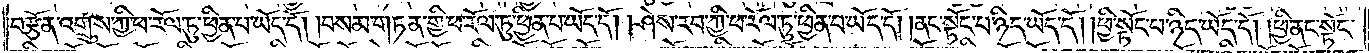བརྩོན་འགྲུས་ཀྱི་ཕ་རོལ་ཏུ་ཕྱིན་པ་ཡོད་དོ། །བསམ་གཏན་གྱི་ཕ་རོལ་ཏུ་ཕྱིན་པ་ཡོད་དོ། །ཤེས་རབ་ཀྱི་ཕ་རོལ་ཏུ་ཕྱིན་པ་ཡོད་དོ། །ནང་སྟོང་པ་ཉིད་ཡོད་དོ། །ཕྱི་སྟོང་པ་ཉིད་ཡོད་དོ། །ཕྱི་ནང་སྟོང་
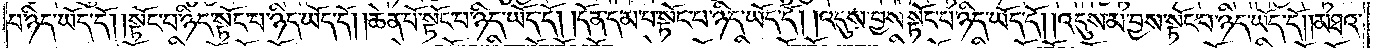པ་ཉིད་ཡོད་དོ། །སྟོང་པ་ཉིད་སྟོང་པ་ཉིད་ཡོད་དོ། །ཆེན་པོ་སྟོང་པ་ཉིད་ཡོད་དོ། །དོན་དམ་པ་སྟོང་པ་ཉིད་ཡོད་དོ། །འདུས་བྱས་སྟོང་པ་ཉིད་ཡོད་དོ། །འདུས་མ་བྱས་སྟོང་པ་ཉིད་ཡོད་དོ། །མཐའ་
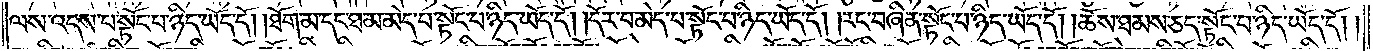ལས་འདས་པ་སྟོང་པ་ཉིད་ཡོད་དོ། །ཐོག་མ་དང་ཐ་མ་མེད་པ་སྟོང་པ་ཉིད་ཡོད་དོ། །དོར་བ་མེད་པ་སྟོང་པ་ཉིད་ཡོད་དོ། །རང་བཞིན་སྟོང་པ་ཉིད་ཡོད་དོ། །ཆོས་ཐམས་ཅད་སྟོང་པ་ཉིད་ཡོད་དོ། །
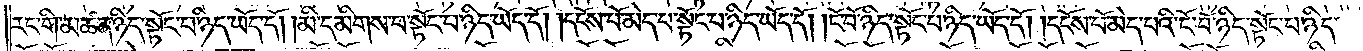རང་གི་མཚན་ཉིད་སྟོང་པ་ཉིད་ཡོད་དོ། །མི་དམིགས་པ་སྟོང་པ་ཉིད་ཡོད་དོ། །དངོས་པོ་མེད་པ་སྟོང་པ་ཉིད་ཡོད་དོ། །ངོ་བོ་ཉིད་སྟོང་པ་ཉིད་ཡོད་དོ། །དངོས་པོ་མེད་པའི་ངོ་བོ་ཉིད་སྟོང་པ་ཉིད་
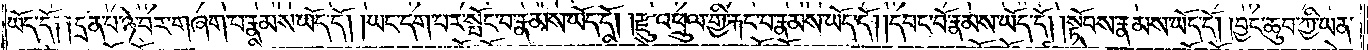ཡོད་དོ༑ ༑དྲན་པ་ཉེ་བར་གཞག་པ་རྣམས་ཡོད་དོ། །ཡང་དག་པར་སྤོང་བ་རྣམས་ཡོད་དོ། །རྫུ་འཕྲུལ་གྱི་རྐང་པ་རྣམས་ཡོད་དོ། །དབང་པོ་རྣམས་ཡོད་དོ། །སྟོབས་རྣམས་ཡོད་དོ། །བྱང་ཆུབ་ཀྱི་ཡན་
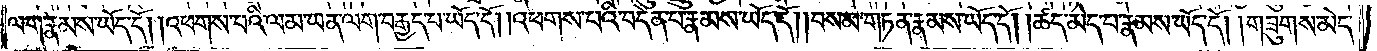ལག་རྣམས་ཡོད་དོ། །འཕགས་པའི་ལམ་ཡན་ལག་བརྒྱད་པ་ཡོད་དོ། །འཕགས་པའི་བདེན་པ་རྣམས་ཡོད་དོ། །བསམ་གཏན་རྣམས་ཡོད་དོ། །ཚད་མེད་པ་རྣམས་ཡོད་དོ། །གཟུགས་མེད་
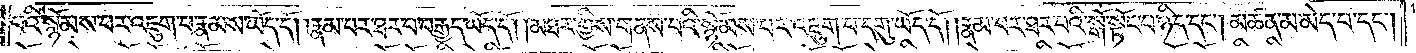པའི་སྙོམས་པར་འཇུག་པ་རྣམས་ཡོད་དོ། །རྣམ་པར་ཐར་པ་བརྒྱད་ཡོད་དོ། །མཐར་གྱིས་གནས་པའི་སྙོམས་པར་འཇུག་པ་དགུ་ཡོད་དོ། །རྣམ་པར་ཐར་པའི་སྒོ་སྟོང་པ་ཉིད་དང༌། མཚན་མ་མེད་པ་དང༌།
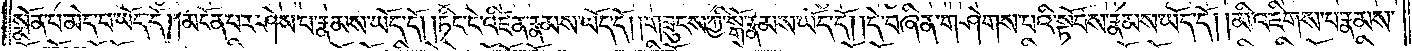སྨོན་པ་མེད་པ་ཡོད་དོ། །མངོན་པར་ཤེས་པ་རྣམས་ཡོད་དོ། །ཏིང་ངེ་འཛིན་རྣམས་ཡོད་དོ། །གཟུངས་ཀྱི་སྒོ་རྣམས་ཡོད་དོ། །དེ་བཞིན་གཤེགས་པའི་སྟོབས་རྣམས་ཡོད་དོ། །མི་འཇིགས་པ་རྣམས་
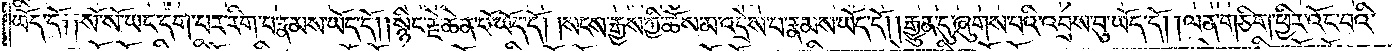ཡོད་དོ༑ ༑སོ་སོ་ཡང་དག་པར་རིག་པ་རྣམས་ཡོད་དོ། །སྙིང་རྗེ་ཆེན་པོ་ཡོད་དོ། །སངས་རྒྱས་ཀྱི་ཆོས་མ་འདྲེས་པ་རྣམས་ཡོད་དོ། །རྒྱུན་དུ་ཞུགས་པའི་འབྲས་བུ་ཡོད་དོ། །ལན་གཅིག་ཕྱིར་འོང་བའི་
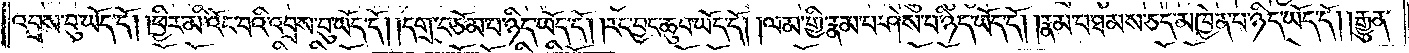འབྲས་བུ་ཡོད་དོ། །ཕྱིར་མི་འོང་བའི་འབྲས་བུ་ཡོད་དོ། །དགྲ་བཅོམ་པ་ཉིད་ཡོད་དོ། །རང་བྱང་ཆུབ་ཡོད་དོ། །ལམ་གྱི་རྣམ་པ་ཤེས་པ་ཉིད་ཡོད་དོ། །རྣམ་པ་ཐམས་ཅད་མཁྱེན་པ་ཉིད་ཡོད་དོ། །རྒྱུན་
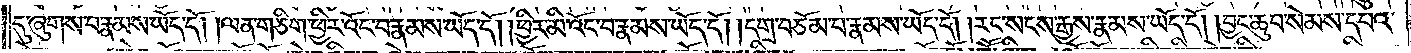དུ་ཞུགས་པ་རྣམས་ཡོད་དོ། །ལན་གཅིག་ཕྱིར་འོང་བ་རྣམས་ཡོད་དོ། །ཕྱིར་མི་འོང་བ་རྣམས་ཡོད་དོ། །དགྲ་བཅོམ་པ་རྣམས་ཡོད་དོ། །རང་སངས་རྒྱས་རྣམས་ཡོད་དོ། །བྱང་ཆུབ་སེམས་དཔའ་
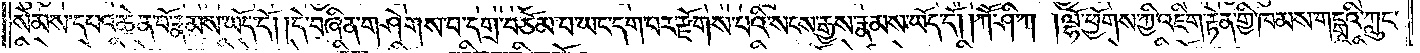སེམས་དཔའ་ཆེན་པོ་རྣམས་ཡོད་དོ། །དེ་བཞིན་གཤེགས་པ་དགྲ་བཅོམ་པ་ཡང་དག་པར་རྫོགས་པའི་སངས་རྒྱས་རྣམས་ཡོད་དོ། །ཀཽ་ཤི་ཀ །ལྷོ་ཕྱོགས་ཀྱི་འཇིག་རྟེན་གྱི་ཁམས་གངྒཱའི་ཀླུང་
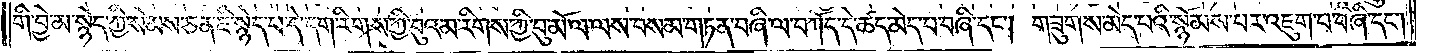གི་བྱེ་མ་སྙེད་ཀྱི་སེམས་ཅན་ཇི་སྙེད་པ་དེ་དག་རིགས་ཀྱི་བུའམ་རིགས་ཀྱི་བུ་མོ་ལ་ལས་བསམ་གཏན་བཞི་ལ་བཀོད་དེ་ཚད་མེད་པ་བཞི་དང༌། གཟུགས་མེད་པའི་སྙོམས་པར་འཇུག་པ་བཞི་དང༌།
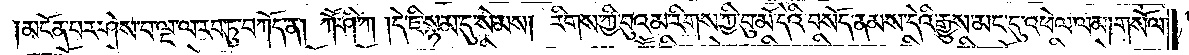མངོན་པར་ཤེས་པ་ལྔ་ལ་རབ་ཏུ་བཀོད་ན། ཀཽ་ཤི་ཀ །དེ་ཇི་སྙམ་དུ་སེམས། རིགས་ཀྱི་བུའམ་རིགས་ཀྱི་བུ་མོ་དེའི་བསོད་ནམས་དེའི་རྒྱུས་མང་དུ་འཕེལ་ལམ། གསོལ་
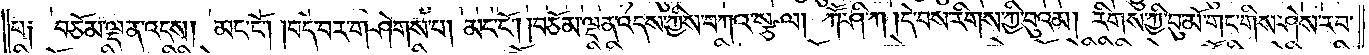པ༑ བཅོམ་ལྡན་འདས། མང་ངོ༌། །བདེ་བར་གཤེགས་པ། མང་ངོ༌། །བཅོམ་ལྡན་འདས་ཀྱིས་བཀའ་སྩལ་པ། ཀཽ་ཤི་ཀ །དེ་བས་རིགས་ཀྱི་བུའམ། རིགས་ཀྱི་བུ་མོ་གང་གིས་ཤེས་རབ་
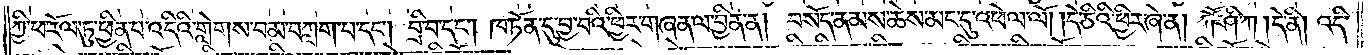ཀྱི་ཕ་རོལ་ཏུ་ཕྱིན་པ་འདིའི་གླེགས་བམ་བཀླག་པ་དང༌། བྲི་བ་དང༌། ཁ་ཏོན་དུ་བྱ་བའི་ཕྱིར་གཞན་ལ་བྱིན་ན། བསོད་ནམས་ཆེས་མང་དུ་འཕེལ་ལོ། །དེ་ཅིའི་ཕྱིར་ཞེ་ན། ཀཽ་ཤི་ཀ །དེ་ནི། འདི་
